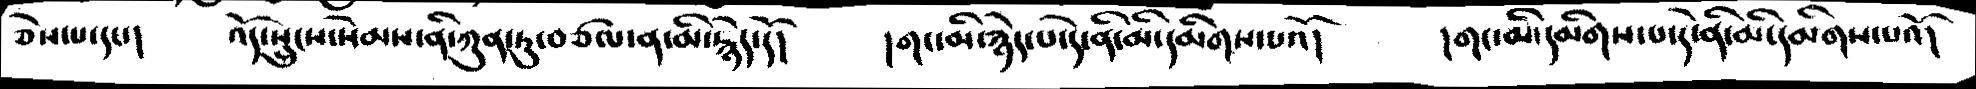ཅེས་པ་དང་།    འོད་སྲུངས་སེམས་ནི་ཀུན་ཏུ་བཙལ་ན་མི་རྙེད་དོ།   །གང་མི་རྙེད་པ་དེ་ནི་མི་དམིགས་པའོ་།   །གང་མི་དམིགས་པ་དེ་ནི་མི་དམིགས་པའོ།
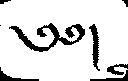༄༅།
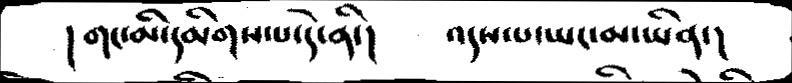།གང་མི་དམིགས་པ་དེ་ནི་།   འདས་པ་ཡང་མ་ཡིན་།
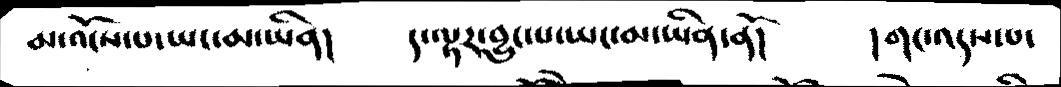མ་འོངས་པ་ཡང་མ་ཡིན།     ད་ལྟར་བྱུང་པ་ཡང་མ་ཡིན་ནོ།     །གང་འདས་པ་
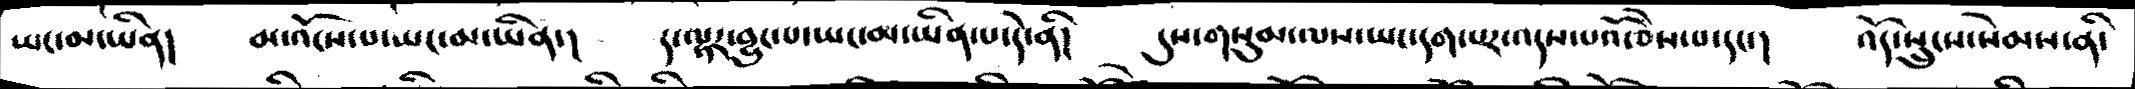ཡང་མ་ཡིན།    མ་འོངས་པ་ཡང་མ་ཡིན་།   ད་ལྟར་བྱུང་པ་ཡང་མ་ཡིན་པ་དེ་ནི།   དུས་གསུམ་ལས་ཡང་དག་པར་འདས་པའོ་ཅེས་པ་དང་།   འོད་སྲུངས་སེམས་ནི་
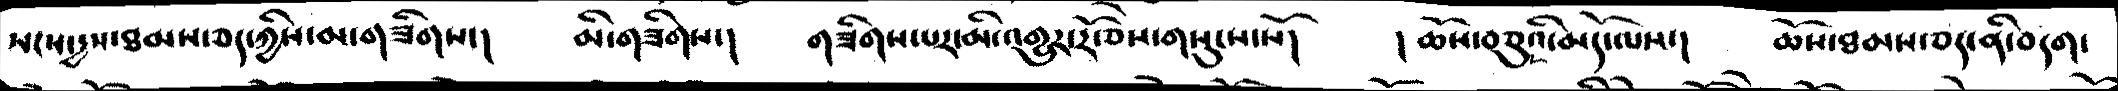སངས་རྒྱས་ཐམས་ཅད་ཀྱིས་མ་གཟིགས་།    མི་གཟིགས་།   གཟིགས་པར་མི་འགྱུར་རོ་ཅེས་གསུངས་སོ།    །ཆོས་བཅུའི་མདོ་ལས་།   ཆོས་ཐམས་ཅད་ནི་བདག་
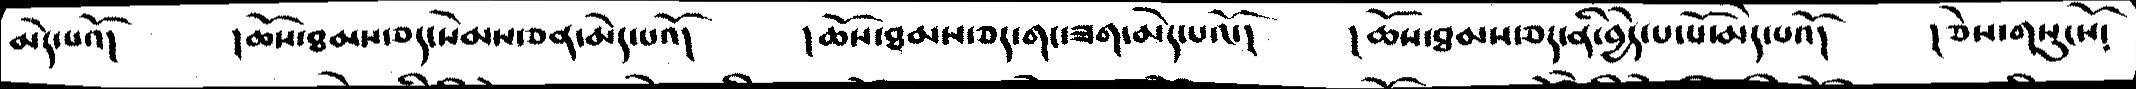མེད་པའོ།   །ཆོས་ཐམས་ཅད་སེམས་ཅན་མེད་པའོ།    །ཆོས་ཐམས་ཅད་གང་ཟག་མེད་པའོ་།    །ཆོས་ཐམས་ཅད་ནི་བྱེད་པ་པོ་མེད་པའོ།   །ཅེས་གསུངསོ༴
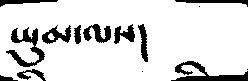ཡུམ་ལས།
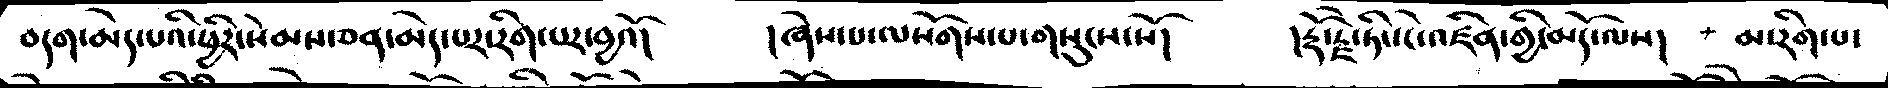བདག་མེད་པའི་ཕྱིར་སེམས་ཅན་མེད་པར་རིག་པར་བྱའོ།   །ཞེས་པ་ལསོགས་པ་གསུངས་སོ།   །རྡོ་རྗེ་ཏིང་ངེ་འཛིན་མདོ་ལས།   མ་རིག་པ་
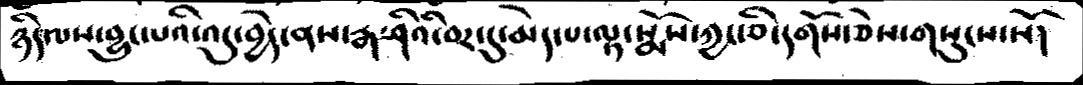ཉིད་ལས་བྱུང་པའི་འདུ་བྱེད་ནས་རྒ་ཤིའི་བར་དུ་མེད་པ་ལྟ་སྨོས་ཀྱང་ཅི་དགོས་ཅེས་གསུངས་སོ།
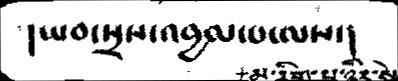།ཡབ་སྲས་འབྱལ་པ་ལས་།
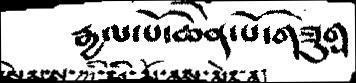རྒྱལ་པོ་ཆེན་པོ་གཟུགས
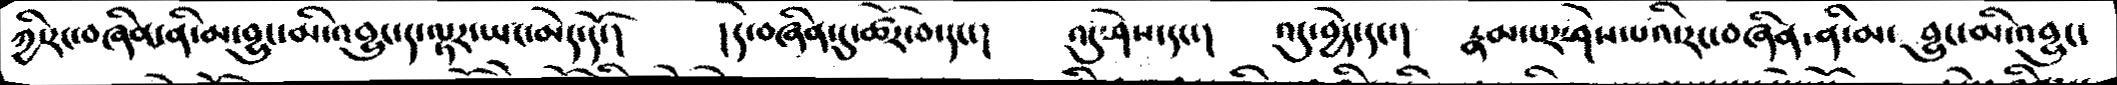ཀྱི་རང་བཞིན་ནི་མ་བྱུང་མི་འབྱུང་ད་ལྟར་ཡང་མེད་དོ་།   །དེ་བཞིན་དུ་ཚོར་བ་དང་།   འདུ་ཤེས་དང་།   འདུ་བྱེད་དང་།   རྣམ་པར་ཤེས་པའི་རང་བཞིན་ནི་མ་ བྱུང་མི་འབྱུང་
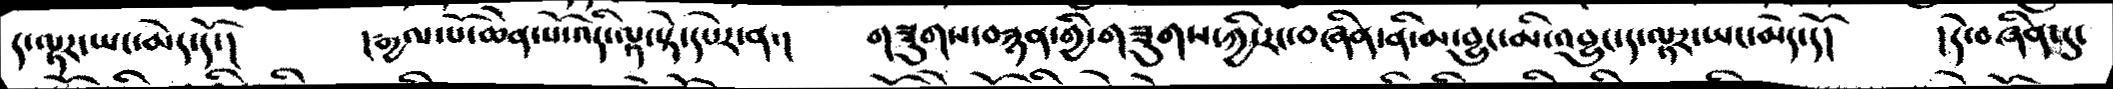ད་ལྟར་ཡང་མེད་དོ་།   །རྒྱལ་པོ་ཆེན་པོ་འདི་ལྟ་སྟེ་དཔེར་ན་།   གཟུགས་བརྙན་གྱི་གཟུགས་ཀྱི་རང་བཞིན་ནི་མ་བྱུང་མི་འབྱུང་ད་ལྟར་ཡང་མེད་དོ།    །དེ་བཞིན་དུ་
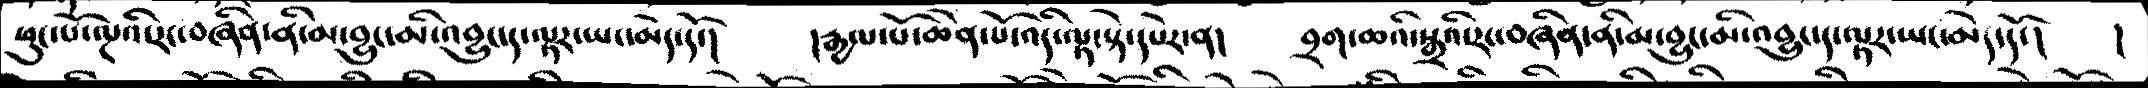ཕུང་པོ་ལྔའི་རང་བཞིན་ནི་མ་བྱུང་མི་འབྱུང་ད་ལྟར་ཡང་མེད་དོ་།    །རྒྱལ་པོ་ཆེན་པོ་འདི་ལྟ་སྟེ་དཔེར་ན།   བྲག་ཆའི་སྒྲའི་རང་བཞིན་ནི་མ་བྱུང་མི་འབྱུང་ད་ལྟར་ཡང་མེད་དོ་།   །
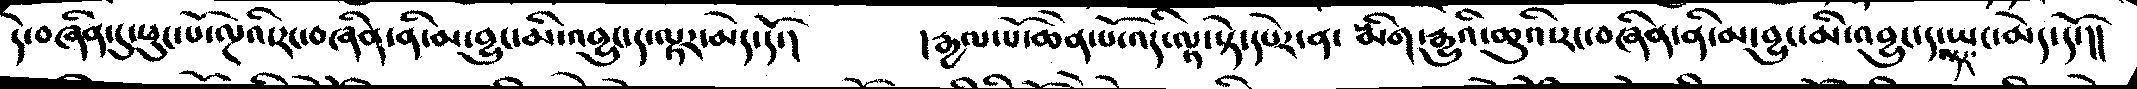དེ་བཞིན་དུ་ཕུང་པོ་ལྔའི་རང་བཞིན་ནི་མ་བྱུང་མི་འབྱུང་ད་ལྟར་མེད་དོ་།   །རྒྱལ་པོ་ཆེན་པོ་འདི་ལྟ་སྟེ་དཔེར་ན་སྨིག་རྒྱུའི་ཆུའི་རང་བཞིན་ནི་མ་བྱུང་མི་འབྱུང་ད་ལྟར་ཡང་མེད་དོ་།།
